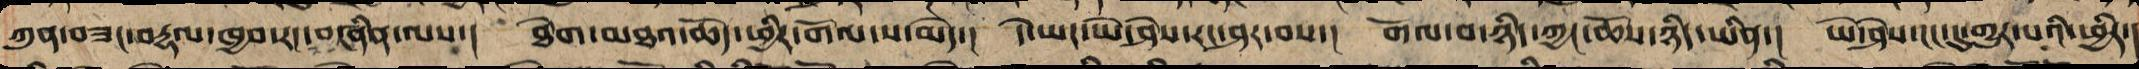ཀུན་བཟང་བརྡལ་ཁྱབ་རང་བཞིན་ལས་། ཐེག་མཐའ་ཆོད་ཕྱིར་གོལ་ས་མེད་། དེ་ཡང་ཡེ་ཤེས་རང་ཤར་བས་། གོལ་བ་ཉིད་ཀྱང་ཆོས་ཉིད་ཡིན་། ཡེ་ཤེས་ངང་དུ་གྱུར་པའི་ཕྱིར་།
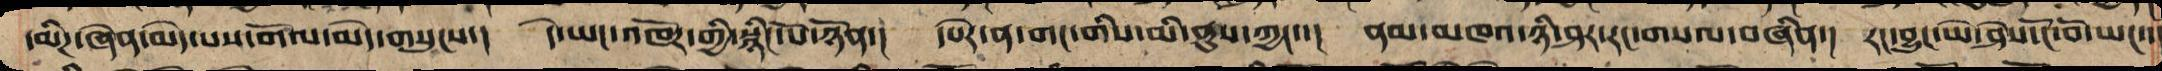དམིཌ་ཞེན་མེད་པས་གོལ་མེད་གསུངས་། དེ་ཡང་འཁོར་གྱི་སྙིང་པོ་ཉོན་། དཔེར་ན་གང་གིས་མི་ནུས་ཀྱང་་། ནམ་མཁའ་ཉི་ཤར་རང་གསལ་བཞིན་། རང་བྱུང་ཡེ་ཤེས་ངོ་བོ་ཡང་་།
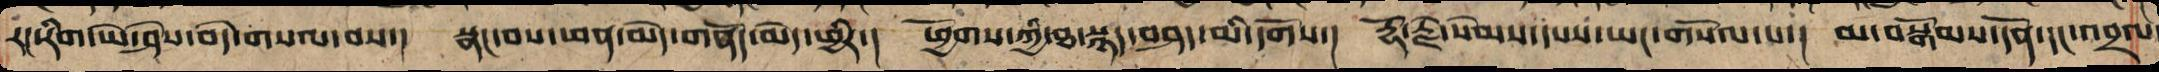རང་རིག་ཡེ་ཤེས་བདེ་གསལ་བས་། སྣང་བས་ཕན་མེད་གནོད་མེད་ཕྱིར་། ཕྱོགས་ཀྱི་ཐ་སྙད་བཤད་མི་དགོས་། རྡོ་རྗེ་སེམས་དཔས་ཡང་གསོལ་པ་། མ་བསྒོམས་དོན་དང་འབྲལ་
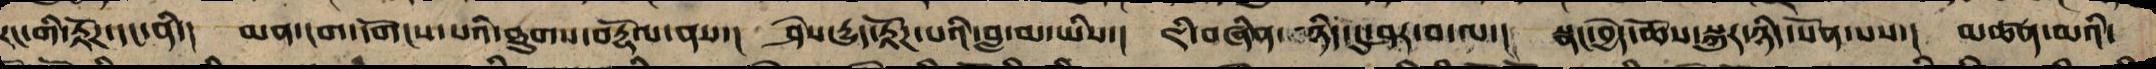རང་གི་རྟོཌ་དང་ནི་། མན་ངག་དགོངས་པའི་ཐུགས་བརྟོལ་ནས་། ཤེས་རྒྱུད་རྟོཌ་པའི་བླ་མ་ཡིས་། ཇི་བཞིན་ཉིད་དུ་ཤར་བ་ལ་། སྣང་བྱེད་ཆོས་སྐུ་ཉིད་སོན་པས་། མཚན་མའི་
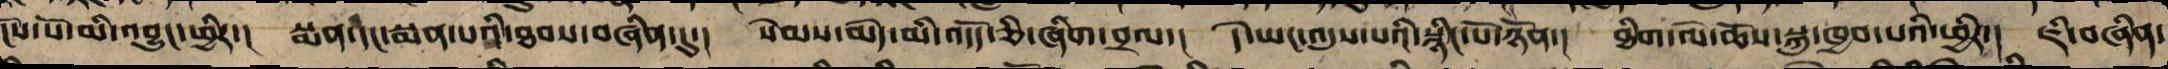དངོས་པོ་མི་འབྱུང་ཕྱིར་། སྨན་དང་སྨན་པའི་ཐབས་བཞིན་དུ་། སེམས་མེད་མི་འདོད་ཅི་ཞིག་བྲལ་། དེ་ཡང་འདུས་པའི་སྙིང་པོ་ཉོན་། ཐིག་ལེ་ཆོས་སྐུས་ཁྱབ་པའི་ཕྱིར་། ཇི་བཞིན་
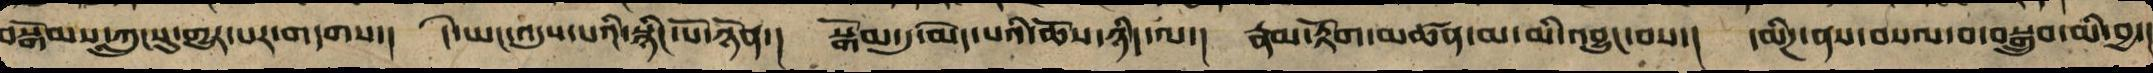བསྒོམས་ཀླུང་དུ་གྱུར་པར་གདགས་། དེ་ཡང་འདུས་པའི་སྙིང་པོ་ཉོན་། སྒོམ་དུ་མེད་པའི་ཆོས་ཉིད་ལ་། རྣམ་རྟོག་མཚན་མ་མི་འབྱུང་བས་། དམིཌ་ནས་བསལ་བ་བསྒྲུབ་མི་བྱ་།
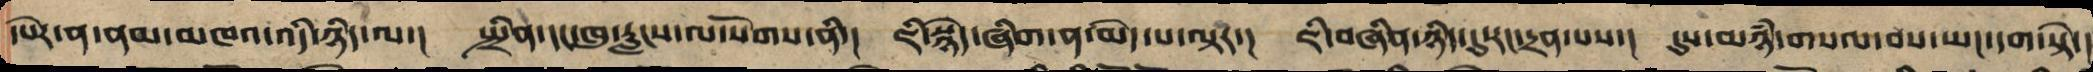།དཔེར་ན་ནམ་མཁའ་འདི་ཉིད་ལ་། སྤྲིན་དང་ཁུ་རླངས་ལ་སོགས་ནི་། ཇི་སྙེད་གཞི་ན་མེད་པ་ལྟར་། ཇི་བཞིན་ཉིད་དུ་རང་དྲན་པས་། དུས་མཉཾ་གསལ་བས་ཡང་དག་སྟེ་།
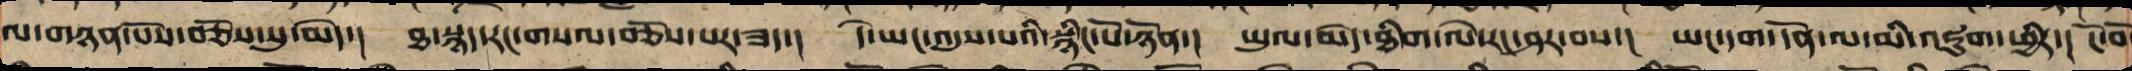ལ་གཉེན་པོས་བཅོས་སུ་མེད་། ཐ་སྙད་རང་གསལ་བཅོས་པར་ཟད་། དེ་ཡང་འདུས་པའི་སྙིང་པོ་ཉོན་། ཡུལ་མེད་ཐིག་ལེ་རང་ཤར་བས་། ཡང་དག་དོན་ལ་མི་འཇུག་ཕྱིར་། ངོ་བོ
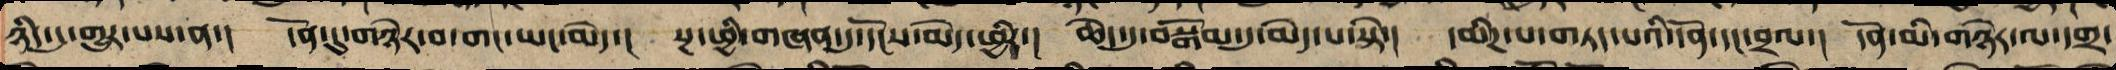ཉིད་དུ་གྱུར་པས་ན་། དོན་དུ་གཉེར་པ་གང་ཡང་མེད་། སྔ་ཕྱི་གཞན་དུ་དངོས་མེད་ཕྱིར་། ཆེད་དུ་བསྒོམ་དུ་མེད་པ་སྟེ་། དམིཌ་པ་གཏད་པའི་དོན་དང་བྲལ་། དོན་མི་གཉེར་ལ་དགྲ་
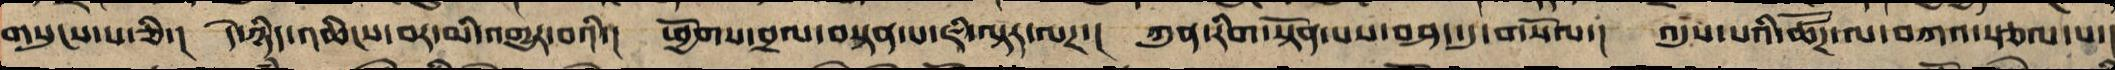གསུངས་པ་ཅི་། དེ་ཉིད་འཆིངས་བར་མི་འགྱུར་བའི་། ཕྱོགས་བྲལ་བསྟན་པ་ཇི་ལྟར་ལགས་། ཀུན་རིག་སྟོན་པས་བཤད་དུ་གསོལ་། འདུས་པའི་ཚོཌ་ལ་བཀའ་སྩལ་པ་།
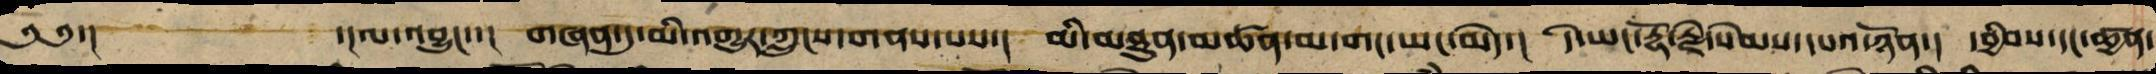༄༅་། ་།ལ་འབྱུང་་། གཞན་དུ་མི་འགྱུར་ཀླུངས་གནས་པས་། མི་མཐུན་མཚན་མ་གང་ཡང་མེད་། དེ་ཡང་རྡོ་རྗེ་སེམས་དཔའ་ཉོན་། དབྱིབས་དང་ཚྱན་
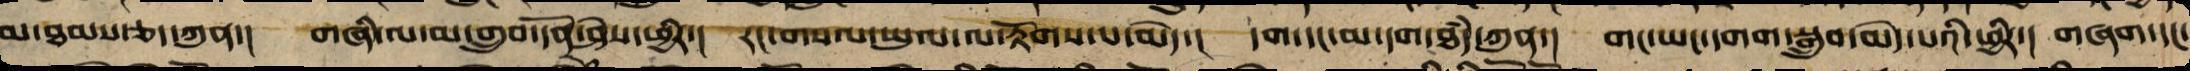མ་ཐམས་ཅད་ཀུན་། གཞི་ལ་མ་གྲུབ་དོན་ཤེས་ཕྱིར་། རང་གསལ་ཡུལ་ལ་རྟོགས་པ་མེད་། དག་དང་མ་དག་ཐཾད་ཀུན་། གང་ཡང་དགག་སྒྲུབ་མེད་པའི་ཕྱིར་། གཞག་དང་
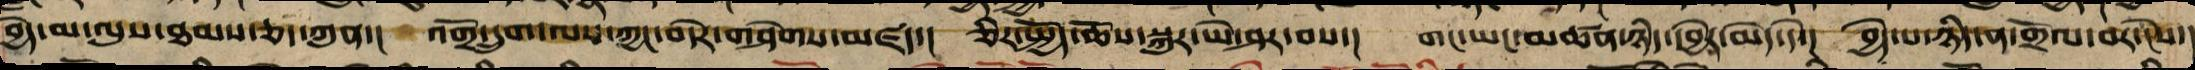བྱེད་མ་ལུས་ཐམས་ཅད་ཀུན་། འགྲོ་དྲུག་ལས་ཀྱང་བདེར་གཤེགས་མཛད་། ཅི་སྤྱོད་ཆོས་སྐུར་ཡེ་ཤར་བས་། གང་ཡང་མཚན་ཉིད་དབྱེར་མེད་དེ་། བྱེད་པ་ཉིད་ན་གྲོལ་བར་ངེས་།
